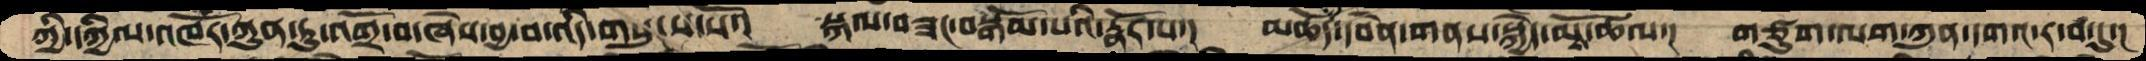གྱི་དཀྱིལ་འཁོར་ཀུན་ཏུ་འགྲོ་བ་ཞེས་བྱ་བ་འདི་གསུངས་སོ་། སྐལ་བཟང་བསྒོམ་པའི་རྣོར་པ་། མཆོད་པ་དབེན་གནས་སྐྱེད་མོས་ཚལ་། གཙུག་ལག་ཀུན་དགའ་ར་བ་དུ་།
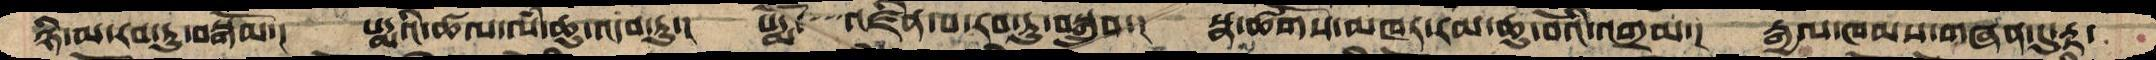ཉི་མ་རབ་ཏུ་བསྒོམ་། པདྨའི་ཚལ་ལཾ་ཆུ་འདབ་ཏུ་། པདྨོ་་་་འཛིན་པ་རབ་ཏུ་བསྒྲུབ་། སྣ་ཚོགས་མཁར་རམ་ཆུ་བོའི་འགྲམ་། རྒྱལ་ཁམས་གཞན་དུ་རྟ་
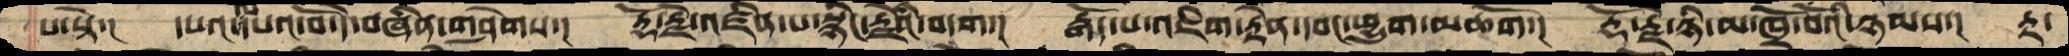པ་སྟེ་། དཔའ་ལ་དཔའ་བོ་དེ་བཞིན་གཤེགས་། རྡོ་རྗེ་འཛིན་པ་སྙིང་རྗེའི་བདག།། རྒོད་པ་འཇིག་རྟེན་དབང་ཕྱུག་མཆོག་། རྡོ་རྗེ་ཉི་མ་ཁྲོ་བོའི་ཉམས་། རྟ་
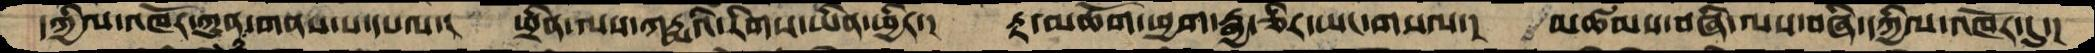དཀྱིལ་འཁོར་ཀུན་ཏུ་གནས་པ་དཔལ་། ཕྲིན་ལས་ཀརྨའི་རིགས་ཡིན་ཕྱིར་། རྟ་མཆོག་ཕྱག་རྒྱ་ཅིར་ཡང་གསལ་། མཚམས་བཞི་ལས་བཞི་དཀྱིལ་འཁོར་དུ་།
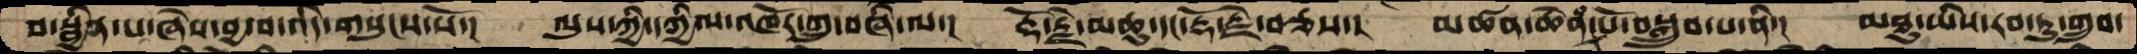བ་སྦྱིན་པ་ཞེས་བྱ་བ་འདི་གསུངས་སོ་། ལུས་ཀྱི་དཀྱིལ་འཁོར་གྲུ་བཞི་ལ་། རྡོ་རྗེ་མཆུ་དང་རྡོ་རྗེ་བཅས་། མཚན་ཆེན་པོ་བསྒྲུབ་པ་ནི་། མཐུ་ཡིས་རབ་ཏུ་གྲུབ་
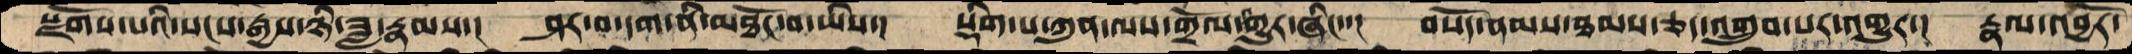སྫོགས་པའི་སངས་རྒྱས་ཉི་ཟླ་རྣམས་། ཤར་བ་དག་ནི་མཐོང་བ་ཡིས་། སྡིག་པ་ཀུན་ལས་གྲོལ་འགྱུར་ཞིང་་། བསོད་ནམས་ཐམས་ཅད་འགྲུབ་པར་འགྱུར་། རྣལ་འབྱོར་
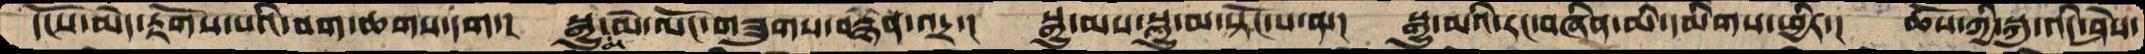དངོས་མེད་རྟོགས་པའི་བག་ཆགས་དག་། སྒྱུ་མ་མེ་ལོང་གཟུགས་བརྙེན་འདྲ་། སྒྱུ་མས་སྒྱུ་མ་སྟོང་པ་ན་། སྒྱུ་མའི་རང་བཞིན་མི་དམིགས་ཕྱིར་། ཆོས་ཀྱི་སྐུ་འདི་ཤེས་
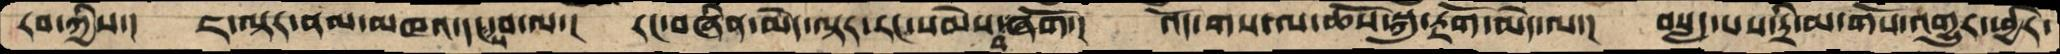རབ་ཀྱིས་། ཇ་ལྟར་ནམ་མཁའ་དང་ས་བ་ལ་། རང་བཞིན་མེད་ལྟར་རང་མེས་བཞོག་། འོད་གསལ་ཆོས་སྐུ་རྟོག་མེད་ལ་། བསླད་པས་དྲི་མ་གོས་འགྱུར་ཕྱིར་།
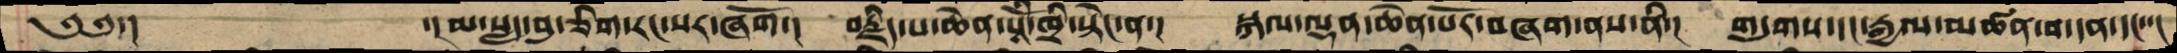༄༅་།   ་།མ་སླད་བུ་ཅིག་རང་སར་ཞོག་། བརྗིད་པ་ཆེན་པོའི་ཁྲི་སྟེང་ན་། སྐལ་ལྡན་ཆེན་པོར་བཞག་ནས་ནི་། གདུགས་དང་རྒྱལ་མཚན་བ་དན་དང་་།
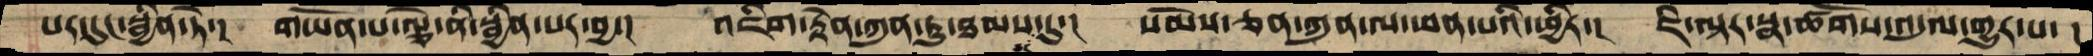པར་དུང་སྦྱིན་ཏེ་། གཡོན་པ་ལྕེ་ནི་སྦྱིན་པར་བྱ་། འཇིག་རྟེན་ཀུན་ཏུ་ཐམས་ཅད་དུ་། སེམས་ཅན་ཀུན་ལ་ཕན་པའི་ཕྱིར་། ཇི་ལྟར་སྣ་ཚོགས་འདུལ་གྱུར་པ་།
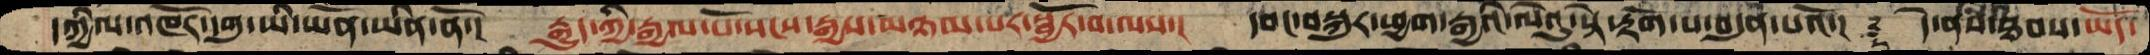དཀྱིལ་འཁོར་དགུ་ཡི་ཡོན་ཡིན་ནོ་། རྒྱུད་ཀྱི་རྒྱལ་པོ་སངས་རྒྱས་མཉམ་པར་སྦྱོར་བ་ལས་། དབང་བསྐུར་ཕྱག་རྒྱའི་ལེའུ་སྟེ་རྟོག་པ་བདུན་པའོ་།  ༈ དེ་ནས་ཐབས་ཡོད་
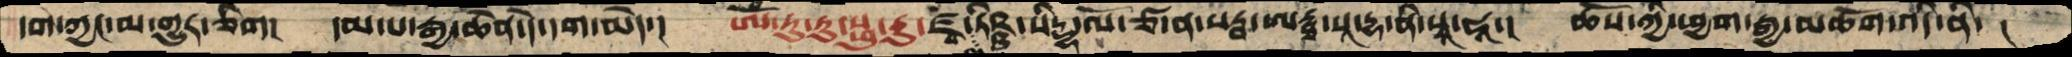དག་ཀྱང་མ་གྱུར་ཅིག། དམ་པ་རྒྱ་ཆེན་དེ་དག་མེད་། ཨོཾ་རུ་རུ་སྥུ་རུ་ཛྭ་ལ་ཏིཥྛ་སིདྡྷ་ལོ་ཙ་ན་སརྦ་ཨརྠ་སཱ་དྷ་ནི་སྭཱ་ཧཱ་། ཆོས་ཀྱི་ཕྱག་རྒྱ་མཆོག་འདི་ནི་།
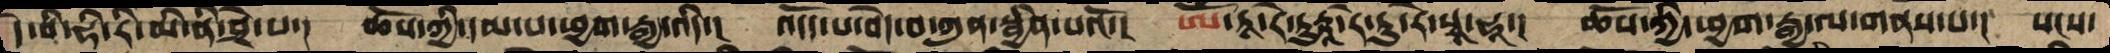དེ་བི་ཧི་རི་མ་ནི་བྲེ་པ་། ཆོས་ཀྱི་དམ་པ་ཕྱག་རྒྱ་འདི་། འདོད་པ་བདེ་བ་ཀུན་སྦྱིན་པའོ་། ཨོཾ་ཏཱ་རེ་ཏུཏྟཱ་རེ་སྭཱ་ཧཱ་། ཆོས་ཀྱི་ཕྱག་རྒྱ་ལ་གནས་པ་། སངས་
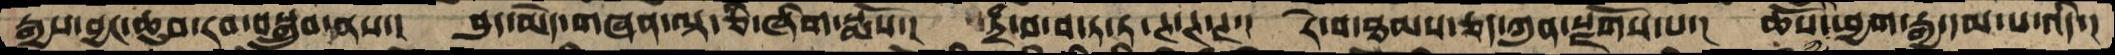རྒྱས་བྱང་ཆུབ་རབ་བསྒྲུབ་ནས་། བུད་མེད་གཞན་ལྟ་ཅི་ཞིག་སྨོས་། ཏྲཾ་བ་བ་ཏ་ཏ་ཊ་ཊ་ཊ་། རེ་བ་ཐམས་ཅད་ཀུན་སྫོགས་པ་། ཆོས་ཀྱི་ཕྱག་རྒྱ་དམ་པ་འདི་།
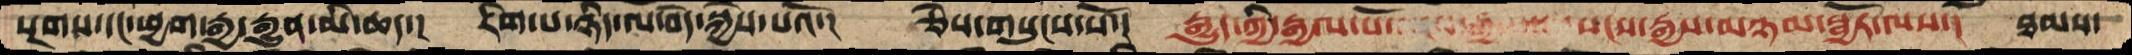སྔགས་དང་ཕྱག་རྒྱ་རྒྱུན་མི་ཆད་། རིག་པ་ཉིད་ལ་བདེ་སྐྱེས་པའོ་། ཅེས་གསུངས་སོ་། རྒྱུད་ཀྱི་རྒྱལ་པོ་                 སངས་རྒྱས་མཉམ་སྦྱོར་ལས་། ཐམས་
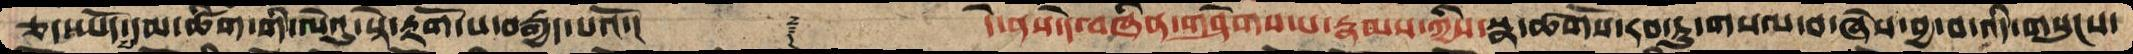ཅད་ཡོད་པ་དམ་ཚིག་གི་ལེའུ་སྟེ་རྟོག་པ་བརྒྱད་པའོ་།     ༈   དེ་ནས་དེ་བཞིན་གཤེགས་པ་རྣམས་ཀྱིས་སྣ་ཚོགས་རབ་ཏུ་གསལ་བ་ཞེས་བྱ་བ་འདི་གསུངས་
